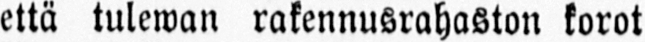että tulewan rakennusrahaston korot
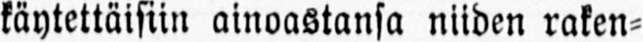käytettäisiin ainoastansa niiden raken-
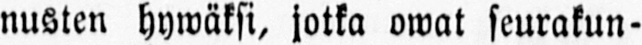nusten hywäksi, jotka owat seurakun-
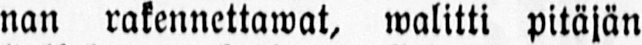nan rakennettawat, walitti pitäjän
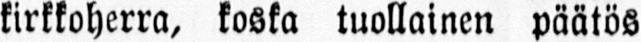kirkkoherra, koska tuollainen päätös
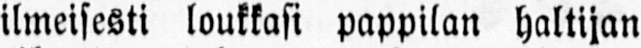ilmeisesti loukkasi pappilan haltijan
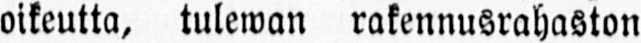oikeutta, tulewan rakennusrahaston
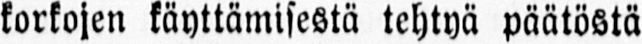korkojen käyttämisestä tehtyä päätöstä
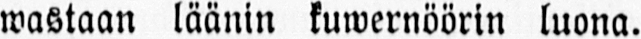wastaan läänin kuwernöörin luona.
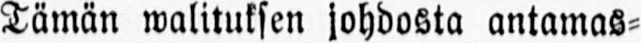Tämän walituksen johdosta antamas-
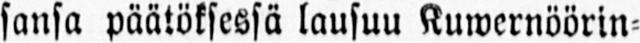sansa päätöksessä lausuu Kuwernöörin-
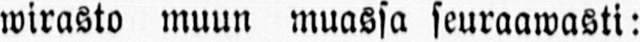wirasto muun muassa seuraawasti:
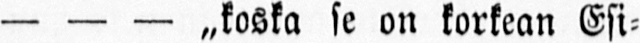— — — „koska se on korkean Esi-
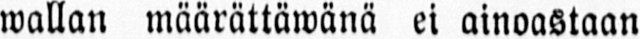wallan määrättäwänä ei ainoastaan
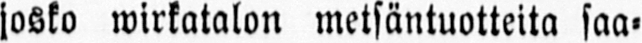josko wirkatalon metsäntuotteita saa-
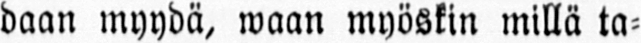daan myydä, waan myöskin millä ta-
